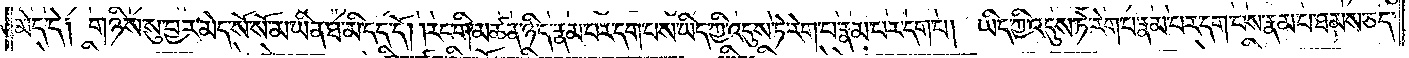མེད་དེ༑ གཉིས་སུ་བྱར་མེད་སོ་སོ་མ་ཡིན་ཐ་མི་དད་དོ། །རང་གི་མཚན་ཉིད་སྟོང་པ་ཉིད་རྣམ་པར་དག་པས་ཡིད་ཀྱི་འདུས་ཏེ་རེག་པ་རྣམ་པར་དག་པ། ཡིད་ཀྱི་འདུས་ཏེ་རེག་པ་རྣམ་པར་དག་པས་རྣམ་པ་ཐམས་ཅད་
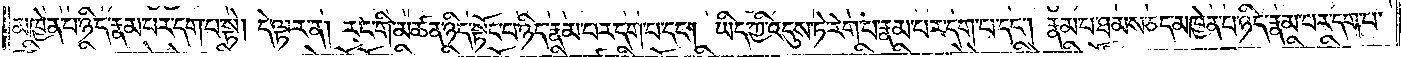མཁྱེན་པ་ཉིད་རྣམ་པར་དག་པ་སྟེ། དེ་ལྟར་ན། རང་གི་མཚན་ཉིད་སྟོང་པ་ཉིད་རྣམ་པར་དག་པ་དང༌། ཡིད་ཀྱི་འདུས་ཏེ་རེག་པ་རྣམ་པར་དག་པ་དང༌། རྣམ་པ་ཐམས་ཅད་མཁྱེན་པ་ཉིད་རྣམ་པར་དག་པ་
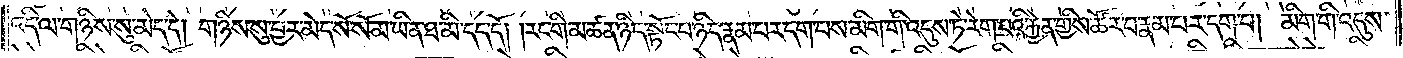འདི་ལ་གཉིས་སུ་མེད་དེ། གཉིས་སུ་བྱར་མེད་སོ་སོ་མ་ཡིན་ཐ་མི་དད་དོ། །རང་གི་མཚན་ཉིད་སྟོང་པ་ཉིད་རྣམ་པར་དག་པས་མིག་གི་འདུས་ཏེ་རེག་པའི་རྐྱེན་གྱིས་ཚོར་བ་རྣམ་པར་དག་པ། མིག་གི་འདུས་
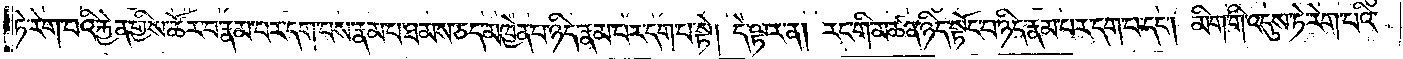ཏེ་རེག་པའི་རྐྱེན་གྱིས་ཚོར་བ་རྣམ་པར་དག་པས་རྣམ་པ་ཐམས་ཅད་མཁྱེན་པ་ཉིད་རྣམ་པར་དག་པ་སྟེ། དེ་ལྟར་ན། རང་གི་མཚན་ཉིད་སྟོང་པ་ཉིད་རྣམ་པར་དག་པ་དང༌། མིག་གི་འདུས་ཏེ་རེག་པའི་
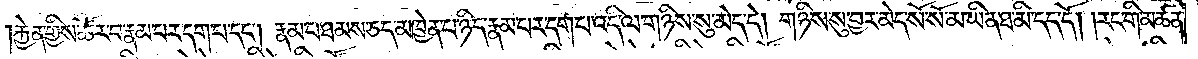རྐྱེན་གྱིས་ཚོར་བ་རྣམ་པར་དག་པ་དང༌། རྣམ་པ་ཐམས་ཅད་མཁྱེན་པ་ཉིད་རྣམ་པར་དག་པ་འདི་ལ་གཉིས་སུ་མེད་དེ། གཉིས་སུ་བྱར་མེད་སོ་སོ་མ་ཡིན་ཐ་མི་དད་དོ། །རང་གི་མཚན་
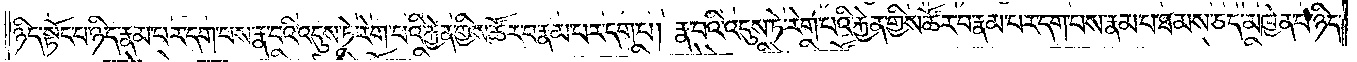ཉིད་སྟོང་པ་ཉིད་རྣམ་པར་དག་པས་རྣ་བའི་འདུས་ཏེ་རེག་པའི་རྐྱེན་གྱིས་ཚོར་བ་རྣམ་པར་དག་པ། རྣ་བའི་འདུས་ཏེ་རེག་པའི་རྐྱེན་གྱིས་ཚོར་བ་རྣམ་པར་དག་པས་རྣམ་པ་ཐམས་ཅད་མཁྱེན་པ་ཉིད་
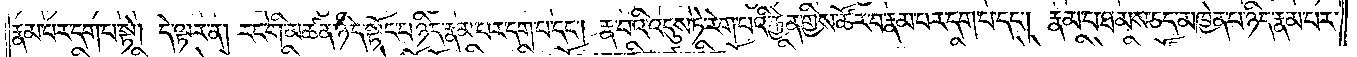རྣམ་པར་དག་པ་སྟེ། དེ་ལྟར་ན། རང་གི་མཚན་ཉིད་སྟོང་པ་ཉིད་རྣམ་པར་དག་པ་དང༌། རྣ་བའི་འདུས་ཏེ་རེག་པའི་རྐྱེན་གྱིས་ཚོར་བ་རྣམ་པར་དག་པ་དང༌། རྣམ་པ་ཐམས་ཅད་མཁྱེན་པ་ཉིད་རྣམ་པར་
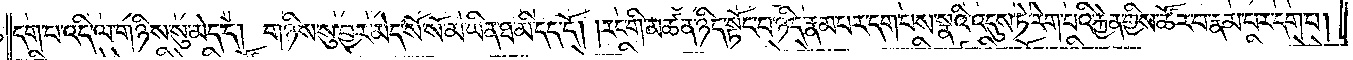དག་པ་འདི་ལ་གཉིས་སུ་མེད་དེ། གཉིས་སུ་བྱར་མེད་སོ་སོ་མ་ཡིན་ཐ་མི་དད་དོ། །རང་གི་མཚན་ཉིད་སྟོང་པ་ཉིད་རྣམ་པར་དག་པས་སྣའི་འདུས་ཏེ་རེག་པའི་རྐྱེན་གྱིས་ཚོར་བ་རྣམ་པར་དག་པ།
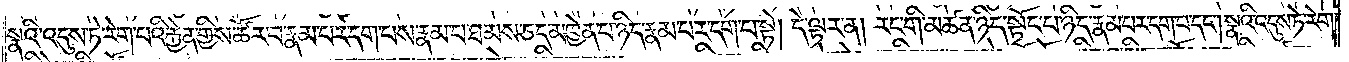སྣའི་འདུས་ཏེ་རེག་པའི་རྐྱེན་གྱིས་ཚོར་བ་རྣམ་པར་དག་པས་རྣམ་པ་ཐམས་ཅད་མཁྱེན་པ་ཉིད་རྣམ་པར་དག་པ་སྟེ། དེ་ལྟར་ན། རང་གི་མཚན་ཉིད་སྟོང་པ་ཉིད་རྣམ་པར་དག་པ་དང༌། སྣའི་འདུས་ཏེ་རེག་
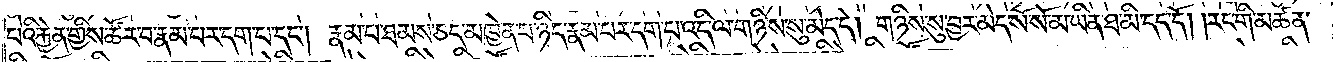པའི་རྐྱེན་གྱིས་ཚོར་བ་རྣམ་པར་དག་པ་དང༌། རྣམ་པ་ཐམས་ཅད་མཁྱེན་པ་ཉིད་རྣམ་པར་དག་པ་འདི་ལ་གཉིས་སུ་མེད་དེ། གཉིས་སུ་བྱར་མེད་སོ་སོ་མ་ཡིན་ཐ་མི་དད་དོ། །རང་གི་མཚན་
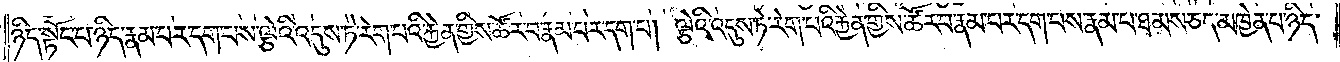ཉིད་སྟོང་པ་ཉིད་རྣམ་པར་དག་པས་ལྕེའི་འདུས་ཏེ་རེག་པའི་རྐྱེན་གྱིས་ཚོར་བ་རྣམ་པར་དག་པ། ལྕེའི་འདུས་ཏེ་རེག་པའི་རྐྱེན་གྱིས་ཚོར་བ་རྣམ་པར་དག་པས་རྣམ་པ་ཐམས་ཅད་མཁྱེན་པ་ཉིད་
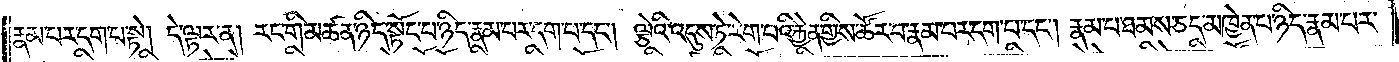རྣམ་པར་དག་པ་སྟེ། དེ་ལྟར་ན། རང་གི་མཚན་ཉིད་སྟོང་པ་ཉིད་རྣམ་པར་དག་པ་དང༌། ལྕེའི་འདུས་ཏེ་རེག་པའི་རྐྱེན་གྱིས་ཚོར་བ་རྣམ་པར་དག་པ་དང༌། རྣམ་པ་ཐམས་ཅད་མཁྱེན་པ་ཉིད་རྣམ་པར་
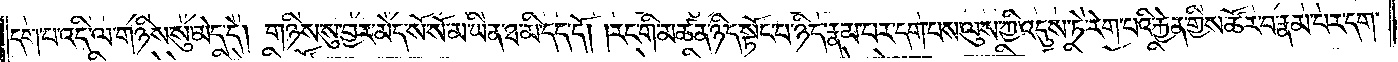དག་པ་འདི་ལ་གཉིས་སུ་མེད་དེ། གཉིས་སུ་བྱར་མེད་སོ་སོ་མ་ཡིན་ཐ་མི་དད་དོ། །རང་གི་མཚན་ཉིད་སྟོང་པ་ཉིད་རྣམ་པར་དག་པས་ལུས་ཀྱི་འདུས་ཏེ་རེག་པའི་རྐྱེན་གྱིས་ཚོར་བ་རྣམ་པར་དག་
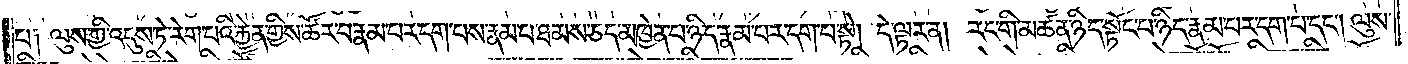པ༑ ལུས་ཀྱི་འདུས་ཏེ་རེག་པའི་རྐྱེན་གྱིས་ཚོར་བ་རྣམ་པར་དག་པས་རྣམ་པ་ཐམས་ཅད་མཁྱེན་པ་ཉིད་རྣམ་པར་དག་པ་སྟེ། དེ་ལྟར་ན། རང་གི་མཚན་ཉིད་སྟོང་པ་ཉིད་རྣམ་པར་དག་པ་དང༌། ལུས་
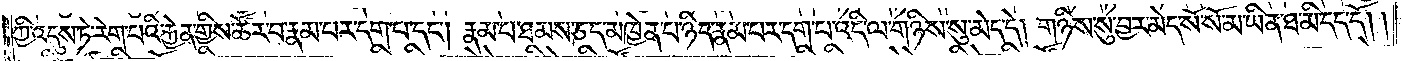ཀྱི་འདུས་ཏེ་རེག་པའི་རྐྱེན་གྱིས་ཚོར་བ་རྣམ་པར་དག་པ་དང༌། རྣམ་པ་ཐམས་ཅད་མཁྱེན་པ་ཉིད་རྣམ་པར་དག་པ་འདི་ལ་གཉིས་སུ་མེད་དེ། གཉིས་སུ་བྱར་མེད་སོ་སོ་མ་ཡིན་ཐ་མི་དད་དོ། །
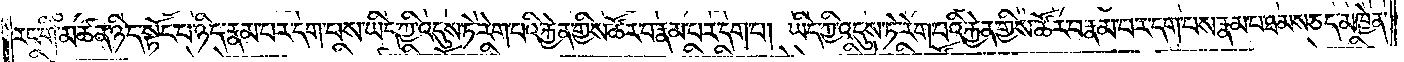རང་གི་མཚན་ཉིད་སྟོང་པ་ཉིད་རྣམ་པར་དག་པས་ཡིད་ཀྱི་འདུས་ཏེ་རེག་པའི་རྐྱེན་གྱིས་ཚོར་བ་རྣམ་པར་དག་པ། ཡིད་ཀྱི་འདུས་ཏེ་རེག་པའི་རྐྱེན་གྱིས་ཚོར་བ་རྣམ་པར་དག་པས་རྣམ་པ་ཐམས་ཅད་མཁྱེན་
